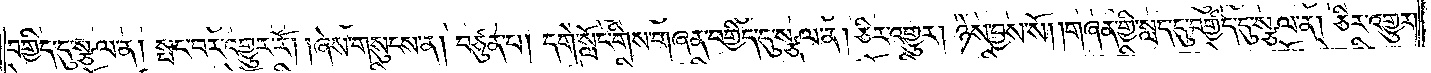བགྱིད་དུ་སྩལ་ན། སྤང་བར་འགྱུར་རོ། །ཞེས་གསུངས་ན། བཙུན་པ། དགེ་སློང་གིས་གཞན་བགྱིད་དུ་སྩལ་ན། ཅིར་འགྱུར། ཉེས་བྱས་སོ། །གཞན་གྱི་སླད་དུ་བགྱིད་དུ་སྩལ་ན། ཅིར་འགྱུར་
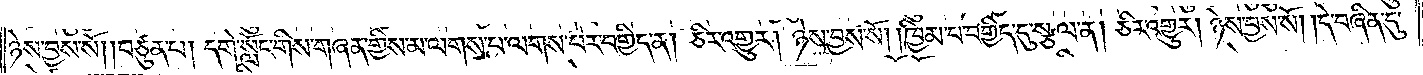ཉེས་བྱས་སོ། །བཙུན་པ། དགེ་སློང་གིས་གཞན་གྱིས་མ་ལགས་པ་ལགས་པར་བགྱིད་ན། ཅིར་འགྱུར། ཉེས་བྱས་སོ། །ཁྱིམ་པ་བགྱིད་དུ་སྩལ་ན། ཅིར་འགྱུར། ཉེས་བྱས་སོ། །དེ་བཞིན་དུ་
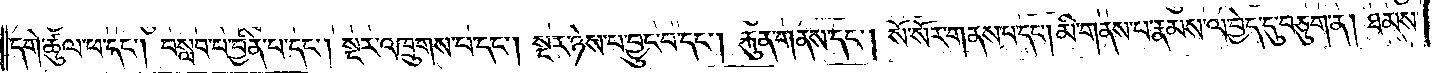དགེ་ཚུལ་ཕ་དང༌། བསླབ་པ་བྱིན་པ་དང༌། སྔར་འཁྲུགས་པ་དང༌། སྔར་ཉེས་པ་བྱུང་བ་དང༌། རྐུན་གནས་དང༌། སོ་སོར་གནས་པ་དང༌། མི་གནས་པ་རྣམས་ལ་བྱེད་དུ་བཅུག་ན། ཐམས་
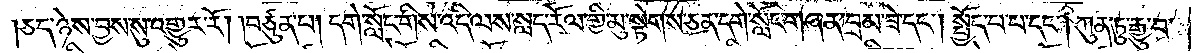ཅད་ཉེས་བྱས་སུ་འགྱུར་རོ། །བཙུན་པ། དགེ་སློང་གིས་འདི་ལས་སླད་རོལ་གྱི་མུ་སྟེགས་ཅན་དགེ་སློང་གཞན་བྲམ་ཟེ་དང༌། སྤྱོད་པ་པ་དང༌། ཀུན་ཏུ་རྒྱུ་བ་
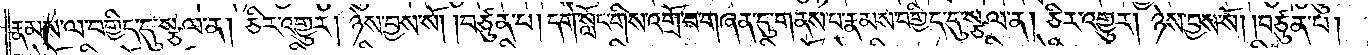རྣམས་ལ་བགྱིད་དུ་སྩལ་ན། ཅིར་འགྱུར། ཉེས་བྱས་སོ། །བཙུན་པ། དགེ་སློང་གིས་འགྲོ་བ་གཞན་དུ་གནས་པ་རྣམས་བགྱིད་དུ་སྩལ་ན། ཅིར་འགྱུར། ཉེས་བྱས་སོ། །བཙུན་པ།
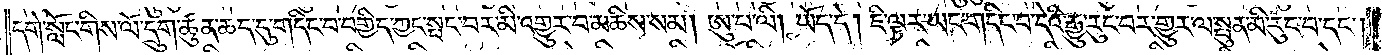དགེ་སློང་གིས་ལོ་དྲུག་ཚུན་ཆད་དུ་གདིང་བ་བགྱིད་ཀྱང་སྤང་བར་མི་འགྱུར་བ་མཆིས་སམ། ཨུ་པ་ལི། ཡོད་དེ། ཇི་ལྟར་ཡང་གདིང་བ་དེའི་རྒྱུ་རུང་བར་གྱུར་ལ་སྤུན་མི་རུང་བ་དང༌།
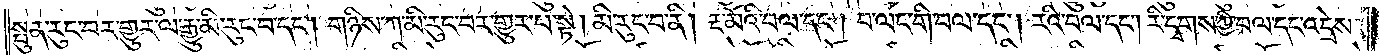སྤུན་རུང་བར་གྱུར་ལ་རྒྱུ་མི་རུང་བ་དང༌། གཉིས་ཀ་མི་རུང་བར་གྱུར་པ་སྟེ། མི་རུང་བ་ནི། རྔ་མོའི་བལ་དང༌། བ་ལང་གི་བལ་དང༌། རའི་བལ་དང༌། རི་དྭགས་ཀྱི་བལ་དང་འདྲེས་
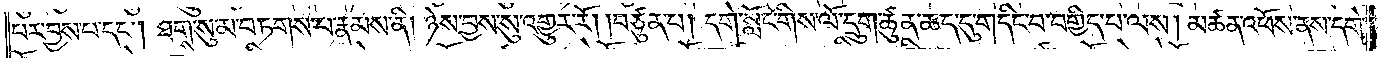པར་བྱས་པ་དང༌། ཐགས་སུ་མ་བཏགས་པ་རྣམས་ནི། ཉེས་བྱས་སུ་འགྱུར་རོ། །བཙུན་པ། དགེ་སློང་གིས་ལོ་དྲུག་ཚུན་ཆད་དུ་གདིང་བ་བགྱིད་པ་ལས། མཚན་འཕོས་ནས་དགེ་
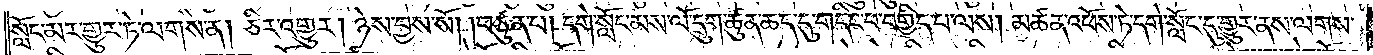སློང་མར་གྱུར་ཏེ་ལགས་ན། ཅིར་འགྱུར། ཉེས་བྱས་སོ། །བཙུན་པ། དགེ་སློང་མས་ལོ་དྲུག་ཚུན་ཆད་དུ་གདིང་བ་བགྱིད་པ་ལས། མཚན་འཕོས་ཏེ་དགེ་སློང་དུ་གྱུར་ནས་ལགས་
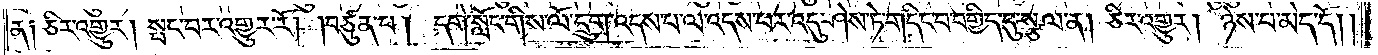ན། ཅིར་འགྱུར། སྤང་བར་འགྱུར་རོ། །བཙུན་པ། དགེ་སློང་གིས་ལོ་དྲུག་འདས་པ་ལ་འདས་པར་འདུ་ཤེས་ཏེ་གདིང་བ་བགྱིད་དུ་སྩལ་ན། ཅིར་འགྱུར། ཉེས་པ་མེད་དོ། །
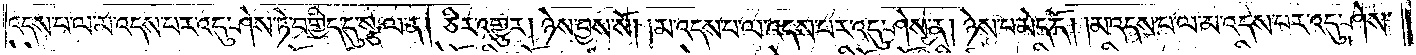འདས་པ་ལ་མ་འདས་པར་འདུ་ཤེས་ཏེ་བགྱིད་དུ་སྩལ་ན། ཅིར་འགྱུར། ཉེས་བྱས་སོ། །མ་འདས་པ་ལ་འདས་པར་འདུ་ཤེས་ན། ཉེས་པ་མེད་དོ། །མ་འདས་པ་ལ་མ་འདས་པར་འདུ་ཤེས་
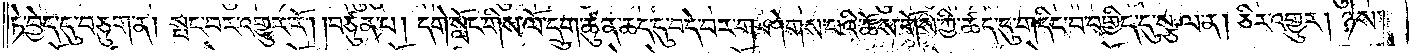ཏེ་བྱེད་དུ་བཅུག་ན། སྤང་བར་འགྱུར་རོ། །བཙུན་པ། དགེ་སློང་གིས་ལོ་དྲུག་ཚུན་ཆད་དུ་བདེ་བར་གཤེགས་པའི་ཆོས་གོས་ཀྱི་ཚད་དུ་གདིང་བ་བགྱིད་དུ་སྩལ་ན། ཅིར་འགྱུར། ཉེས་
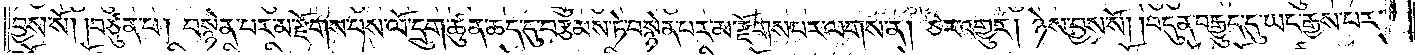བྱས་སོ། །བཙུན་པ། བསྙེན་པར་མ་རྫོགས་པས་ལོ་དྲུག་ཚུན་ཆད་དུ་བརྩམས་ཏེ་བསྙེན་པར་མ་རྫོགས་པར་ལགས་ན། ཅིར་འགྱུར། ཉེས་བྱས་སོ། །བདུན་བརྒྱུད་དུ་ཡང་རྒྱས་པར་
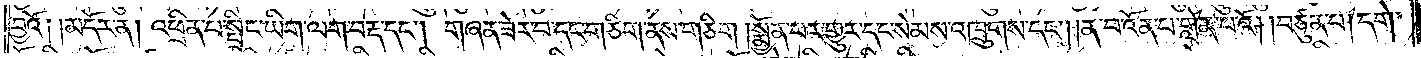བྱའོ༑    ༑མདོར་ན། འཕྲིན་པ་སྤྲིང་ཡིག་ལག་བརྡ་དང༌། གཞན་ཟེར་བ་དང་གཅིག་ནས་གཅིག །སྨྱོན་པར་གྱུར་དང་སེམས་འཁྲུགས་དང༌། །ན་བ་འོན་པ་གླེན་པའོ། །བཙུན་པ། དགེ་
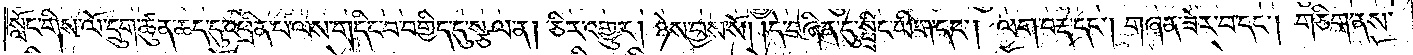སློང་གིས་ལོ་དྲུག་ཚུན་ཆད་དུ་འཕྲིན་པ་ལས་གདིང་བ་བགྱིད་དུ་སྩལ་ན། ཅིར་འགྱུར། ཉེས་བྱས་སོ། །དེ་བཞིན་དུ་སྤྲིང་ཡིག་དང༌། ལག་བརྡ་དང༌། གཞན་ཟེར་བ་དང༌། གཅིག་ནས་
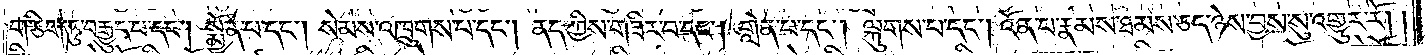གཅིག་ཏུ་བརྒྱུད་པ་དང༌། སྨྱོན་པ་དང༌། སེམས་འཁྲུགས་པ་དང༌། ནད་ཀྱིས་གཟིར་བ་དང༌། གླེན་པ་དང༌། ལྐུགས་པ་དང༌། འོན་པ་རྣམས་ཐམས་ཅད་ཉེས་བྱས་སུ་འགྱུར་རོ། །
